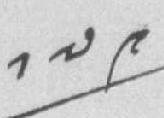༡༧༩
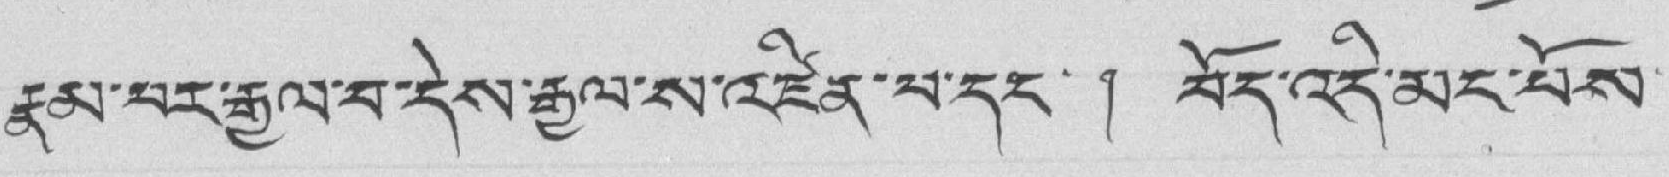རྣམ་པར་རྒྱལ་བ་དེས་རྒྱལ་ས་འཛིན་པ་དང་ ། བོད་འདི་མང་པོས་
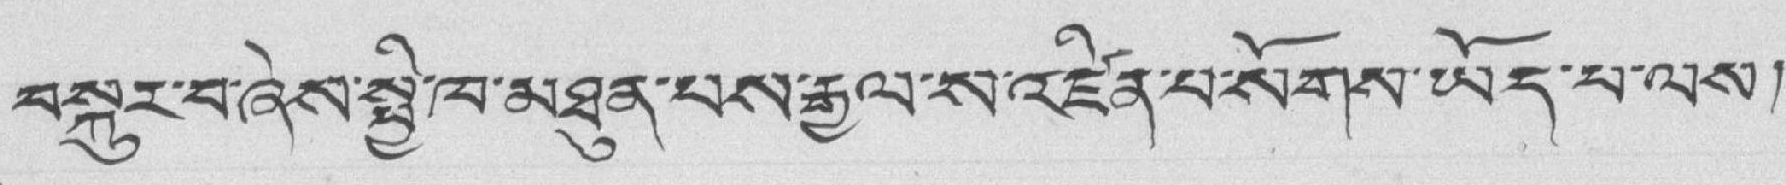བསྐུར་བ་ཞེས་སྤྱི་ཁ་མཐུན་པས་རྒྱལ་ས་འཛིན་པ་སོགས་ཡོད་པ་ལས།
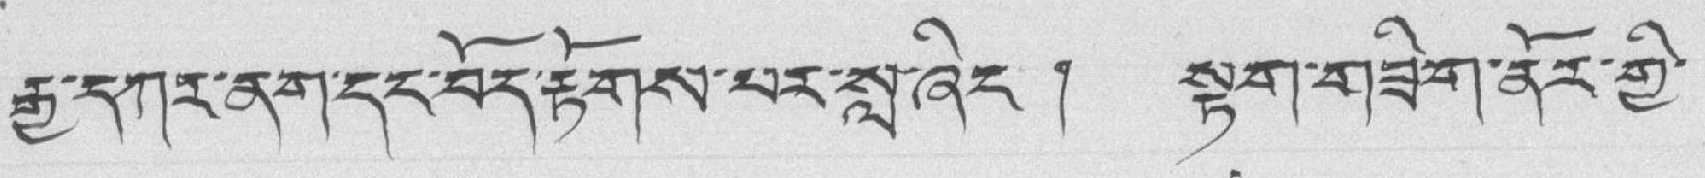རྒྱ་དཀར་ནག་དང་བོད་རྟོགས་པར་སླ་ཞིང་། སྟག་གཟིག་ནོར་གྱི་
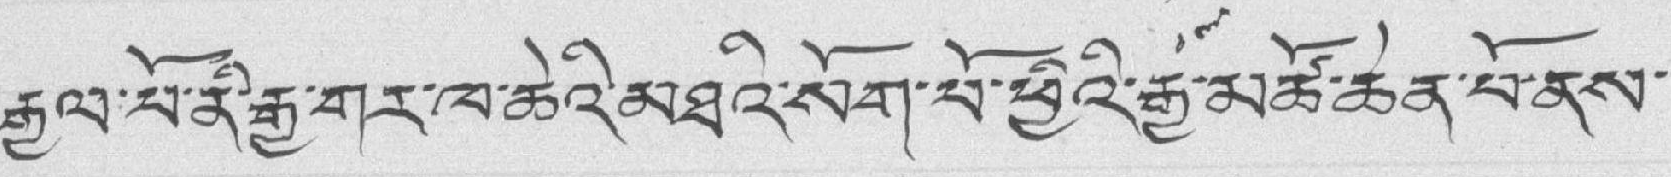རྒྱལ་པོ་ནི་རྒྱ་གར་ཁ་ཆེའི་མཐའི་སོག་པོ་ཕྱིའི་རྒྱ་མཚོ་ཆེན་པོ་ནས་
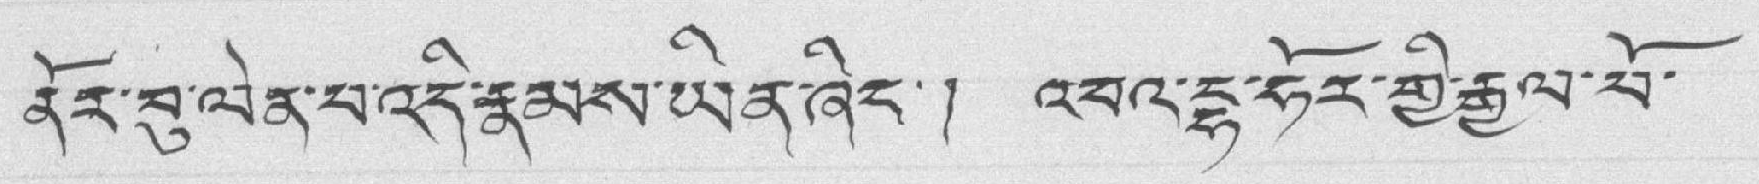ནོར་བུ་ལེན་པ་འདི་རྣམས་ཡིན་ཞིང་། འབའ་དྷ་ཧོར་གྱི་རྒྱལ་པོ་
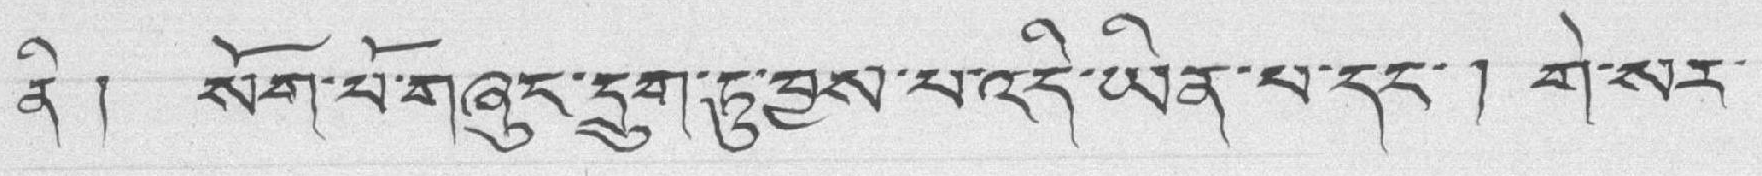ནི ། སོག་པོ་གཞུང་དྲུག་ཏུ་བྱས་པ་འདི་ཡིན་པ་དང་། གེ་སར་
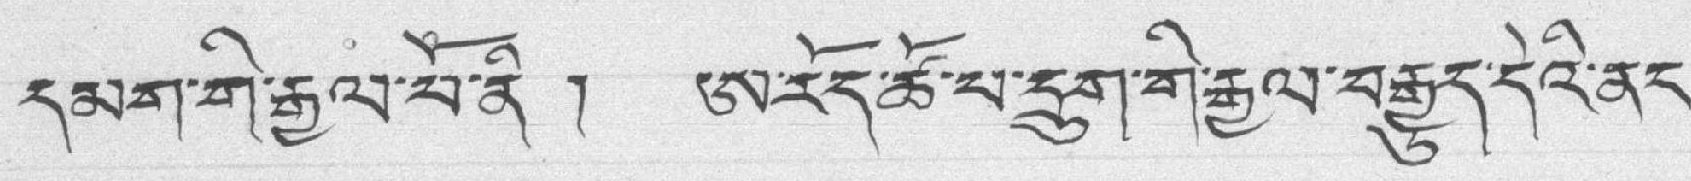དམག་གི་རྒྱལ་པོ་ནི ། ཨ་རོད་ཚོ་པ་དྲུག་གི་རྒྱལ་བརྒྱུད་དེའི་ནང་
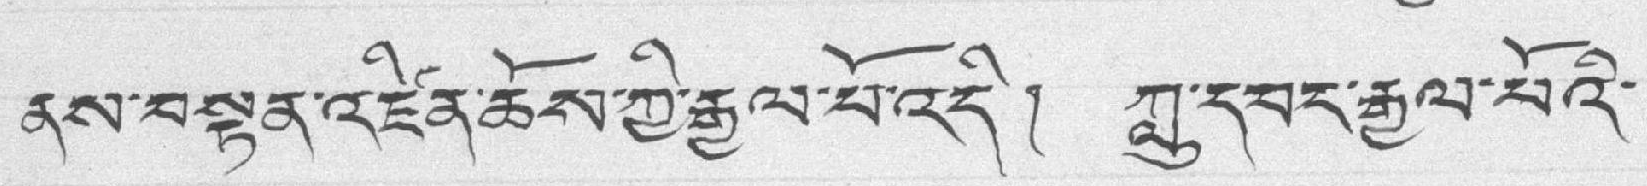ནས་བསྟན་འཛིན་ཆོས་ཀྱི་རྒྱལ་བོ་འདི། ཀླུ་དབང་རྒྱལ་པོའི་
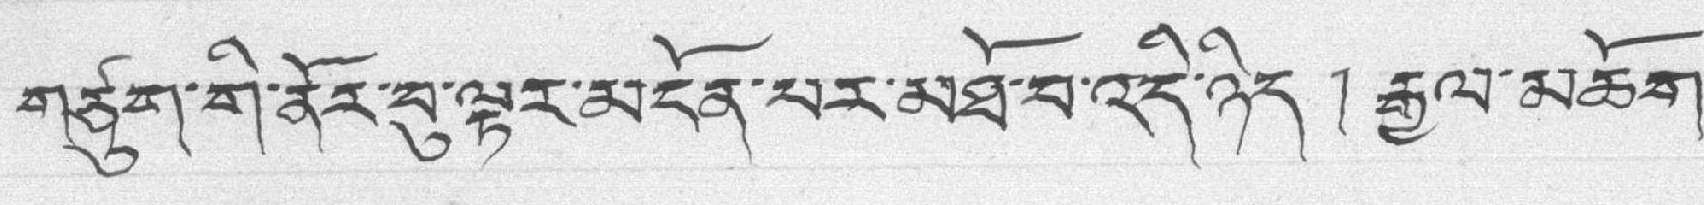གཙུག་གི་ནོར་བུ་ལྟར་མངོན་པར་མཐོ་བ་འདི་ཉིད། རྒྱལ་མཆོག་
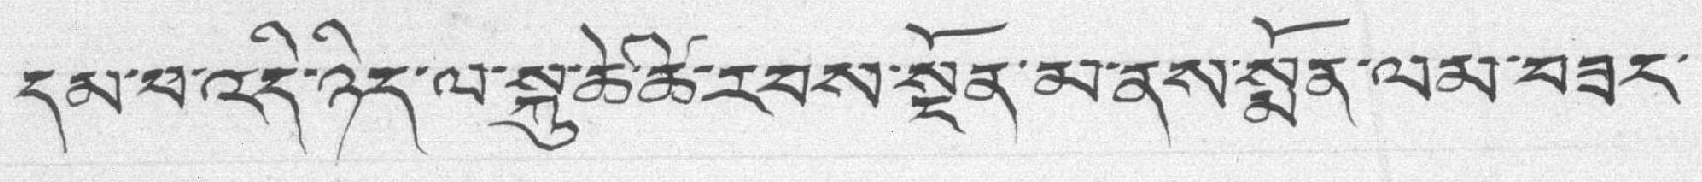དམ་པ་འདི་ཉིད་ལ་སྐུ་ཚེ་ཚེ་རབས་སྔོན་མ་ནས་སྨོན་ལམ་བཟང་
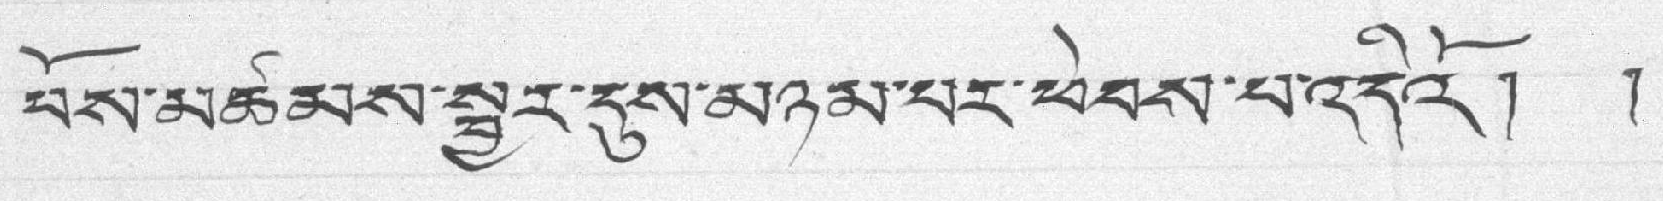པོས་མཚམས་སྦྱར་དུས་མཉམ་པར་ཕེབས་བ་འདིའོ། །
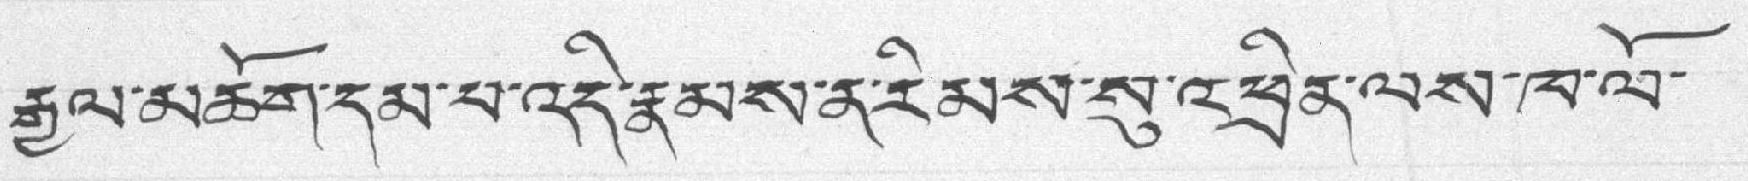རྒྱལ་མཆོག་དམ་པ་འདི་རྣམས་ན་རིམས་སུ་འཕྲིན་ལས་ཁ་ལོ་
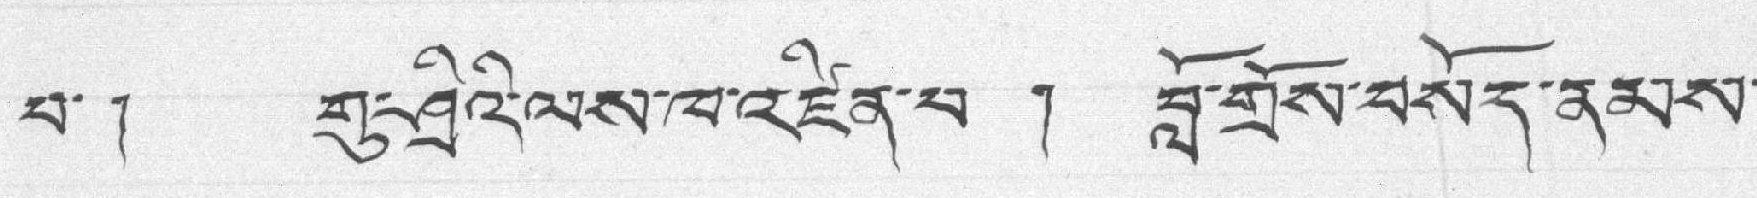པ་། གུ་ཤྲིའི་ལས་ཁ་འཛིན་པ ། བློ་གྲོས་བསོད་ནམས་
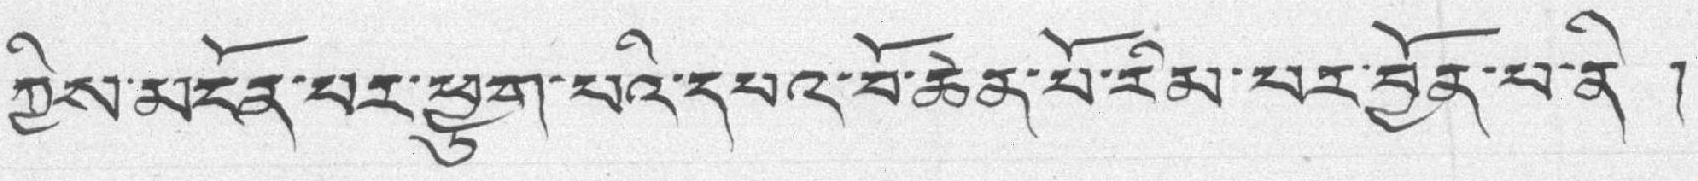ཀྱིས་མངོན་པར་ཕྱུག་པའི་དཔའ་བོ་ཆེན་པོ་རིམ་པར་བྱོན་པ་ནི །
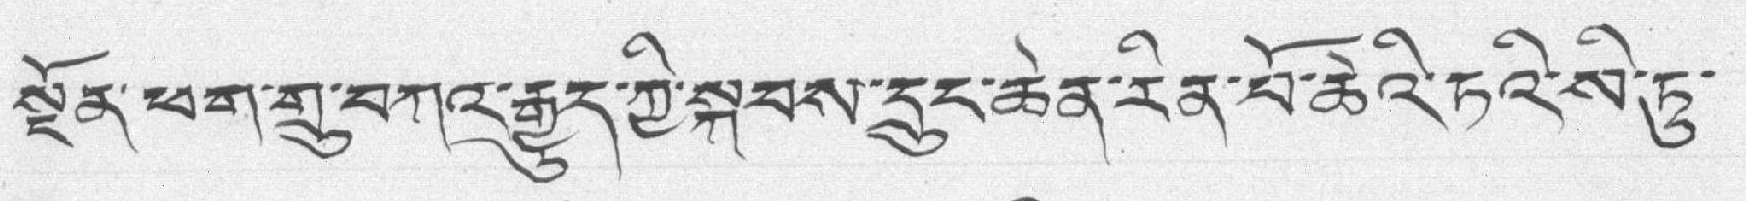སྔོན་ཕག་གྲུ་བཀའ་རྒྱུད་ཀྱི་སྐབས་དྲུང་ཆེན་རིན་པོ་ཆེའི་ཏའི་སི་ཏུ་
